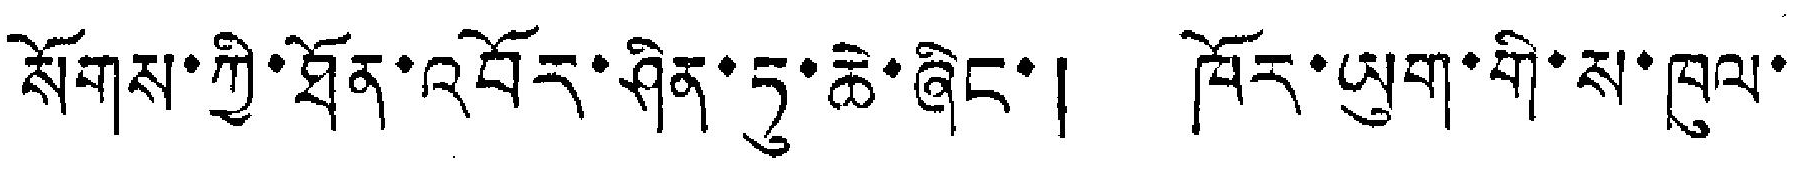སོགས་ཀྱི་ཐོན་འབྱོར་ཤིན་ཏུ་ཆེ་ཞིང་། ཁོར་ཡུག་གི་ས་ཁུལ་
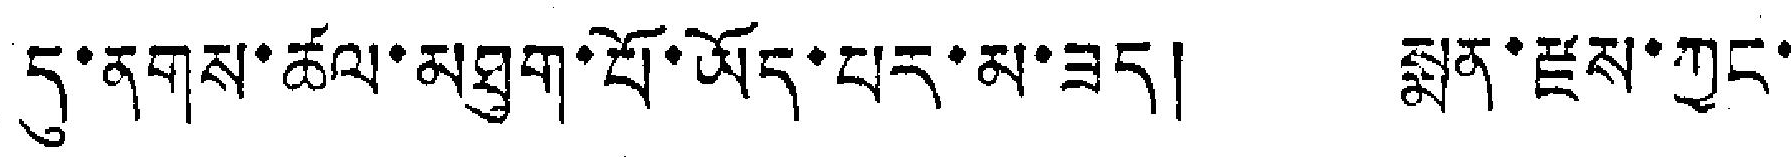དུ་ནགས་ཚལ་མཐུག་པོ་ཡོད་པར་མ་ཟད། སྨན་རྫས་ཀྱང་
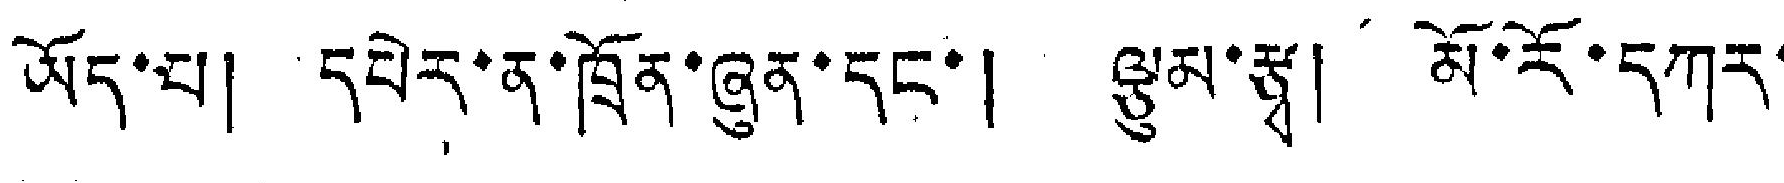ཡོད་པ། དཔེར་ན་ཁྲོན་ཞུན་དང་། ལྕུམ་རྩྭ། མོ་རོ་དཀར་
